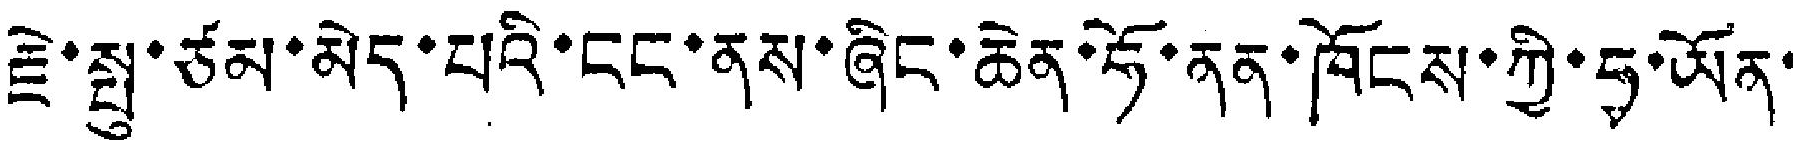རྗེ་སྤུ་ཙམ་མེད་པའི་ངང་ནས་ཞིང་ཆེན་ཧོ་ནན་ཁོངས་ཀྱི་ཧྭ་ཡོན་
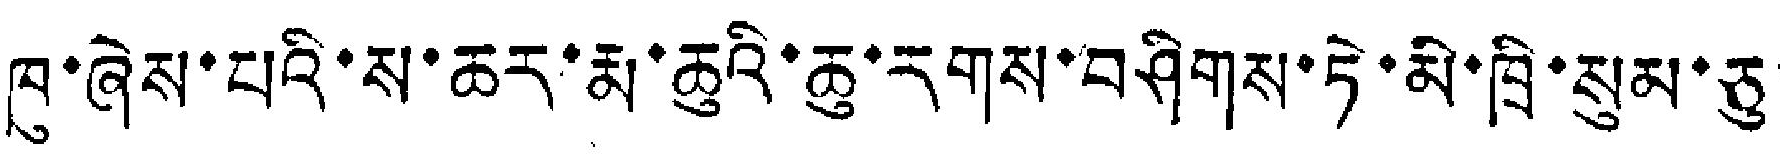ཁུ་ཞེས་པའི་ས་ཆར་རྨ་ཆུའི་ཆུ་རགས་བཤིགས་ཏེ་མི་ཁྲི་སུམ་ཅུ་
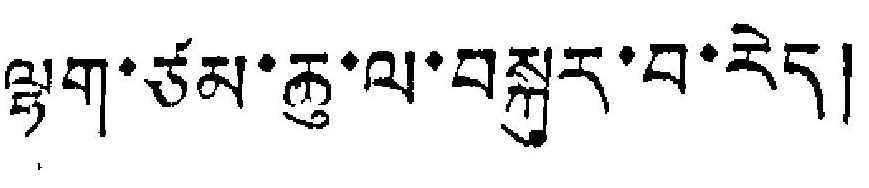ལྷག་ཙམ་ཆུ་ལ་བསྐུར་བ་རེད།
